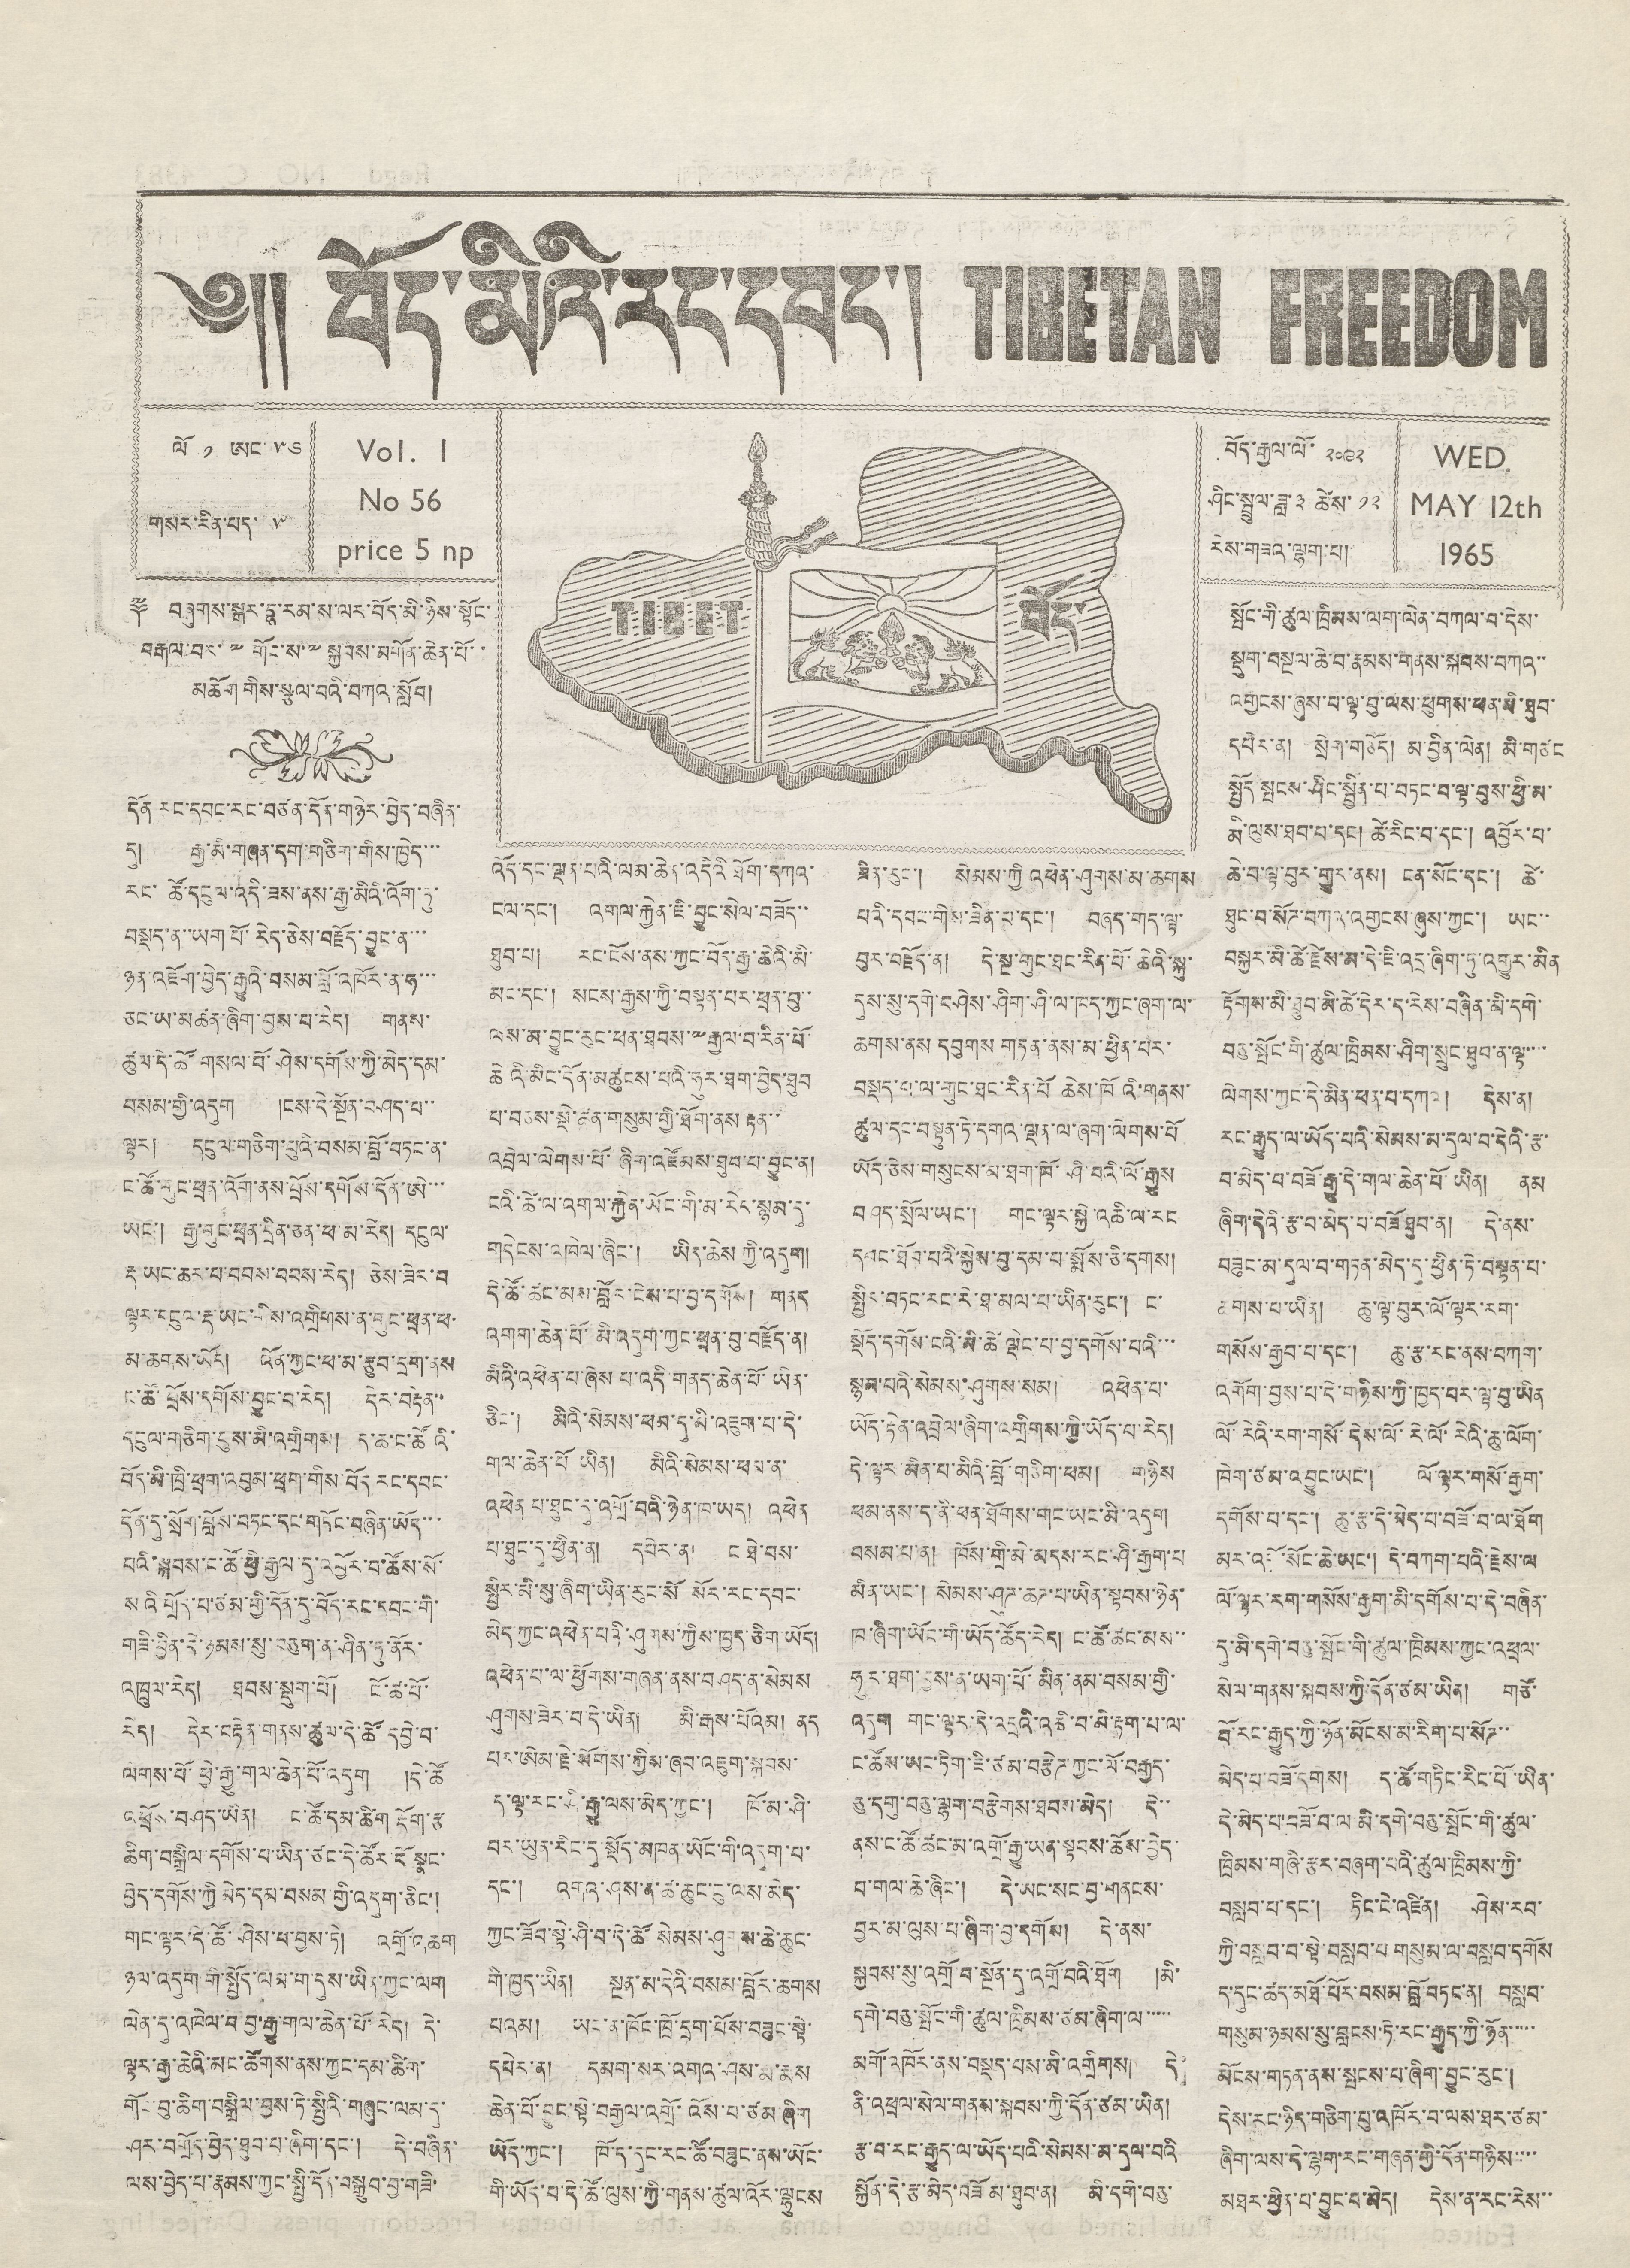༄།། བོད་མིའི་རང་དབང་། TIBETAN FREEDOM
ལོ ༡ ཨང་ ༥༦
གསར་རིན་པད་ ༥
Vol.   l
No 56
price 5 np
༈  བཞུགས་སྐར་དྷ་རམ་ས་ལར་བོད་མི་ཉིས་སྟོང་
བརྒལ་བར་༸གོང་ས་༸སྐྱབས་མགོན་ཆེན་པོ་་
མཆོག གིས་སྩལ་བའི་བཀའ་སློབ།
TIBET      བོད་
བོད་རྒྱལ་ལོ་ ༢༠༩༢
ཤིང་སྦྲུལ་ཟླ་༣ ཚེས་ ༡༢
རེས་གཟའ་ལྷག་པ།
WED
MAY  12th
1965
དོན རང་དབང་རང་བཙན་དོན་གཉེར་བྱེད་བཞིན་
དུ། རྒྱ་མི་གཞན་དག་གཅིག་གིས་ཁྱེད་་་
རང་ཚོ་དངུལ་འདི་ཟས་ནས་རྒྱ་མིའི་འོག་ཏུ་
བསྡད་ན་ཡག པོ་རེད་ཅེས་བརྗོད་བྱུང་ན་་་
ཉན་འཇོག་བྱེད་རྒྱུའི་བསམ་བློ་འཁོར་ན་ཧ་་་
ཅང་ཡ་མཚན་ཞིག་བྱས་པ་རེད། གནས་
ཚུལ་དེ་ཚོ་གསལ་པོ་ཤེས་དགོས་ཀྱི་མེད་དམ་
བསམ་གྱི་འདུག །ངས་དེ་སྔོན་བཤད་པ་་
ལྟར། དངུལ་གཅིག་པུའི་བསམ་བློ་བཏང་ན་
ང་ཚོ་གུང་ཕྲན་འོག་ནས་བྲོས་དགོས་དོན་ཨེ་་་
ཡང་། རྒྱ་གུང་ཕྲན་དྲིན་ཅན་ཕ་མ་རེད། དངུལ་
རྡ ཡང་ཆར་པ་བབས་རེད།   ཅེས་ཟེར་བ
ལྟར་དངུལ་རྡ་ཡང་གིས་འགྲིགས་ན་གུང་ཕྲན་ཕ་
མ་ཆགས་ཡོད། འོན་ཀྱང་ཕ་མ་རྩུབ་དྲག་ནས
ང་ཚོ་བྲོས་དགོས་བྱུང་བ་རེད། དེར་བརྟེན་་
དངུལ་གཅིག་བུས་མི་འགྲིགས། ད་ཆ་ང་ཚོའི་
བོད་མི་ཁྲི་ཕྲག་འབུམ་ཕྲག་གིས་བོད རང་དབང་
དོན་དུ་སྲོག་བློས་བཏང་དང་གཏོང་བཞིན་ཡོད་་་
པའི་སྐབས་ང་ཚོ་ཕྱི་རྒྱལ་དུ་འབྱོར་བ་ཚོས་སོ་
སའི་གྲོད་པ་ཙམ་གྱི་དོན་དུ་བོད་རང་དབང་གི་
གཟི་བྱིན་དེ་ཉམས་སུ་བཅུག་ན་ཤིན་ཏུ་ནོར་
འཁྲུལ་རེད། ཐབས་སྡུག་པོ། ངོ་ཚ་པོ་
རེད། དེར་བརྟེན་གནས་ཚུལ་དེ་ཚོ་དབྱེ་བ་
ལེགས་པོ་ཕྱེ་རྒྱུ་གལ་ཆེན་པོ་འདུག །དེ་ཚོ
འཕྲོས་བཤད་ཡིན། ང་ཚོ་དམ་ཚིག རྡོག་རྩ
ཆིག་བསྒྲིལ་དགོས་པ་ཡིན་ཙང་དེ་ཚོར་དོ སྣང་
བྱེད་དགོས་ཀྱི མེད་དམ་བསམ་གྱི་འདུག་ཅིང་།
གང་ལྟར་དེ་ཚོ་ཤེས་པ་བྱས་ཏེ། འགྲོ་འཆག
ཉལ་འདུག གི་སྤྱོད་ལམ་གདུས་ཡིན་ཀྱང་ལག
ལེན་དུ་འཁེལ་བ་བྱ་རྒྱ་གལ་ཆེན་པོ་རེད། དེ་
ལྟར་རྒྱ་ཆེའི་མང་ཚོགས་ནས་ཀྱང་དམ་ཚིག་
གོང་བུ་ཆིག་བསྒྲིལ་བྱས་ཏེ་སྤྱིའི་གཞུང་ལམ་དུ་
ཤར་བགྲོད་བྱེད་ཐུབ་པ་ཞིག་དང་། དེ་བཞིན་
ལས་བྱེད་པ་རྣམས་ཀྱང་སྤྱི་དོན་བསྒྲུབ་བྱ་གཟི་
འོད་དང་ལྡན་པའི་ལམ་ཆེན་འདིའི་ཐོག་དཀའ་
ངལ་དང་། འགལ་རྐྱེན་ཇི་བྱུང་སེལ་བཟོད་་
ཐུབ་པ། རང་ངོས་ནས་ཀྱང་བོད་རྒྱ་ཆེའི་མི་
མང་དང་། སངས་རྒྱས་ཀྱི་བསྟན་པར་ཕྲན་བུ་་
ལས་མ་བྱུང་རུང་ཕན་ཐབས་༸རྒྱལ་བ་རིན་པོ་
ཆེའི་མིང་དོན་མཚུངས་པའི་ཧུར་ཐག་བྱེད་ཐུབ་
པ་བཅས་སྡེ་ཚན་གསུམ་གྱི་ཐོག་ནས རྟན་་་
འབྲེལ་ལེགས་པོ་ཞིག་འཛོམས་ཐུབ་པ་བྱུང་ན།
ངའི་ཚེ་ལ་འགལ་རྐྱེན་ཡོང་གི་མ་རེད་སྙམ་དུ་
གདེངས་འཁེལ་ཞིང་། ཡིད་ཆེས ཀྱི་འདུག།
དེ་ཚོ་ཚང་མས་བློར་ངེས་པ་བྱ་དགོས། གནད་
འགག་ཆེན་པོ་མི་འདུག་ཀྱང་ཕྲན་བུ་བརྗོད་ན།
མིའི་འཕེན་པ་ཞེས པ་འདི་གནད་ཆེན་པོ་ཡིན་
ཅིང་། མིའི་སེམས་ཕམ་དུ་མི་འཇུག་པ་དེ་
གལ་ཆེན་པོ ཡིན། མིའི་སེམས་ཕམ་ན་
འཕེན པ་ཐུང་དུ་འགྲོ་བའི་ཉེན་ཁ་ཡད། འཕེན
པ་ཐུང་དུ་ཕྱིན་ན། དཔེར་ན། ང ཐེ་བས་
སྤྱིར་མི་སུ་ཞིག་ཡིན་རུང་སོ སོར་རང་དབང་
མེད་ཀྱང་འཕེན་པའི་ཤུགས་ཀྱིས་ཁྱད་ཅིག་ཡོད།
འཕེན་པ་ལ་ཕྱོགས་གཞན་ནས་བཤད་ན་སེམས
ཤུགས་ཟེར་བ་དེ་ཡིན། མི་རྒས་པོའམ། ནད
པར་ཨེམ་རྗེ་སོགས་ཀྱིས་ཞབ་འཇུག་སྐབས་
ད་ལྟ་རང་ཤི་རྒྱུ་ལས་མེད་ཀྱང་། ཁོ་མ་ཤི་
བར་ཡུན་རིང་དུ་སྡོད་མཁན་ཡོང་གི་འདུག་པ་
དང་། འགའ་ཤས་ན་ཚ་ཆུང་ངུ་ལས་མེད་
ཀྱང་ཟོབ་སྟེ་ཤི་བ་དེ་ཚོ་སེམས་ཤུགས་ཆེ་ཆུང་
གི་ཁྱད་ཡིན། སྔན་མ་དེའི་བསམ་བློར་ཆགས
པའམ། ཡང་ན་ཁོང་ཁྲོ་དྲག་པོས་བཟུང་སྟེ་
དཔེར་ན། དམག་སར་འགའ་ཤས་རྨ་རྨས
ཆེན་པོ་བྱུང་སྟེ་བརྒྱལ་འགྲོ་འོས་པ་ཙམ་ཞིག
ཡོད་ཀྱང་། ཁོ་ད་དུང་རང་ཚོ་བཟུང་ནས་ཡོང་
གི་ཡོད་པ་དེ་ཚོ་ལུས་ཀྱི་གནས་ཚུལ་འོར་ལྷུངས
ཟིན་རུང་། སེམས་ཀྱི འཕེན་ཤུགས་མ་ཆགས
པའི་དབང་གིས་ཟིན་པ་དང་། བཞད་གད་ལྟ་
བུར་བརྗོད་ན། དེ་སྔ་གུང་ཐང་རིན་པོ་ཆེའི་སྐུ་
དུས་སུ་དགེ་བཤེས་ཤིག་ཤི་ལ་ཁད་ཀྱང་ཞག་ལ་
ཆགས་ནས དབུགས གཏན་ནས་མ་ཕྱིན་པེར་
བསྡད་པ་ལ་གུང་ཐང་རིན་པོ ཆེས་ཁོའི་གནས་
ཚུལ་དང་བསྟུན་ཏེ་དགའ་ལྡན་ལ་ཞག་ལེགས་པོ
ཡོད་ཅེས་གསུངས་མ་ཐག་ཁོ་ཤི་བའི་ལོ་རྒྱུས
བཤད་སྲོལ་ཡང་། གང་ལྟར་སྐྱེ་འཆི་ལ་རང
དབང་ཐོབ་པའི་སྐྱེས་བུ་དམ་པ་སྨོས་ཅི་དགུས།།
སྤྱིར་བཏང་རང་རེ་ཐ་མལ་པ་ཡིན་རུང་། ང་
སྡོད་དགོས་ངའི་མི་ཚེ ལྡེང་པ་བྱ་དགོས་པའི་་་
སྙམ་པའི་སེམས་ཤུགས་སམ། འཕེན་པ་
ཡོད་རྟེན་འབྲེལ་ཞིག་འགྲིགས་ཀྱི་ཡོད་པ་རེད།
དེ་ལྟར མིན་པ་མིའི་བློ་གཅིག་ཕམ། གཉིས
ཕམ་ནས་ད་ནི་ཕན་ཐོགས་གང་ཡང་མི་འདུག
བསམ་པ་ན། ཁོས་གྲི་མེ་མདས་རང་ཤི་རྒྱག་པ
མིན་ཡང་། སེམས་ཤུཊ་ཆཊ་པ་ཡིན་སྟབས་ཉེན་
ཁ་ཞིག་ཡོང་གི་ཡོད་ཚོད་རེད། ང་ཚོ་ཚང་མས་་
ཧུར་ཐག་བྱས་ན་ཡག་པོ་མིན་ནམ་བསམ་གྱི་
འདུག གང་ལྟར་དེ་འདྲའི་འཆི་བ་མི་རྟག་པ་ལ་
ང་ཚོས་ཡང་ཏིག་ཇི་ཙམ་བརྩེཊ་ཀྱང་ལོ་བརྒྱད་
ཅུ་དགུ་བཅུ་ལྷག་བརྩེགས་ཐབས་མེད། དེ་་
ནས་ང་ཚོ་ཚང་མ་འགྲོ་རྒྱུ་ཡན་སྟབས་ཆོས་བྱེད་
པ་གལ་ཆེ་ཞིང་། དེ་ཡང་སང་བྱ་གནངས་
བྱར་མ་ལུས་པ་ཞིག་བྱ་དགོས། དེ་ནས་
སྐྱབས་སུ་འགྲོ་བ་སྔོན་དུ་འགྲོ་བའི་ཐོག །མི་
དགེ་བཅུ་སྤྱོང་གི་ཚུལ་ཁྲིམས་ཙམ་ཞིག་ལ་་་་་
མགོ་འཁོར་ནས་བསྡད་པས་མི་འགྲིགས། དེ་
ནི་འཕྲལ་སེལ་གནས་སྐབས་ཀྱི་དོན་ཙམ་ཡིན།
རྩ་བ་རང་རྒྱུད་ལ་ཡོད་པའི་སེམས་མ་དལ་བའི
སྐྱོན་དེ་རྩ་མེད་བཟོམ་ཐུབ་ན། མི་དགེ་བཅུ་
སྤོང་གི་ཚུལ་ཁྲིམས་ལག་ལེན་བཀལ་བ་དེས་
སྡུག་བསྔལ་ཆེ་བ་རྣམས་གནས་སྐབས་བཀའ་་
འགྱངས་ཞུས་པ་ལྟ་བུ་ལས་ཕུགས་ཕན་མི་ཐུབ་
དཔེར་ན། སྲེག་གཅོད། མ་བྱིན་ལེན། མི་གཙང
སྤྱོད སྤངས་ཤིང་སྦྱིན་པ་བཏང་བ་ལྟ་བུས་ཕྱི་མ་
མི་ལུས་ཐུབ་པ་དང། ཚེ་རིང་བ་དང་། འབྱོར་བ་
ཆེ་བ་ལྟ་བུར་གྱུར་ནས། ངན་སོང་དང་། ཚེ་
ཐུང་བ་སོཌ་བཀའ་འགྱངས་ཞུས་ཀྱང་། ཡང་་
བསྐྱར་མི་ཚེ་རྗེས་མ་དེ་ཇི་འདྲ་ཞིག་ཏུ་འགྱུར་མིན
རྟོགས་མི་ཐུབ་མི་ཚེ་དེར་ད་རེས་བཞིན་མི་དགེ་
བཅུ་སྤོང་གི་ཚུལ་ཁྲིམས་ཤིག་སྲུང་ཐུབ་ན་ལྟ་་་་
ལེགས་ཀྱང་དེ་མིན་ཕན་པ་དཀའ། དེས་ན།
རང་རྒྱུད་ལ་ཡོད་པའི་སེམས་མ་དུལ་བ་དེའི་རྩ་
བ་མེད་པ་བཟོ་རྒྱུ་དེ་གལ་ཆེན་པོ་ཡིན། ནམ
ཞིག་དེའི་རྩ་བ་མེད་པ་བཟོ ཐུབ་ན། དེ་ནས་
བཟུང་མ་དུལ་བ་གཏན་མེད་དུ་ཕྱིན་ཏེ་བསྟན་པ་
ཆགས་པ་ཡིན། ཆུ་ལྟ་བུར་ལོ་ལྟར་རག་
གསོས་རྒྱབ་པ་དང་། ཆུ་རྩ་རང་ནས་བཀག་
འགོག་བྱས་པ་དེ་གཉིས་ཀྱི་ཁྱད་པར་ལྟ་བུ་ཡིན།
ལོ་རེའི་རག་གསོ་དེས་ལོ་རེ་ལོ་རེའི་ཆུ་ལོག་
ཁེག་ཙམ་འབྱུང་ཡང་། ལོ་ལྟར་གསོ་རྒྱག་
དགོས་པ་དང་། ཆུ་རྩ་དེ་མེད་པ་བཟོ་བ་ལ་ཐོག
མར་འངོ་སོང་ཆེ་ཡང་། དེ་བཀག་པའི་རྗེས་ལ
ལོ་ལྟར་རག་གསོས་རྒྱག་མི་དགོས་པ་དེ་བཞིན་
དུ་མི་དགེ་བཅུ་སྤོང་གི་ཚུལ་ཁྲིམས་ཀྱང་འཕྲལ་
སེལ་གནས་སྐབས་ཀྱི་དོན་ཙམ་ཡིན། གཙོ་
བོ་རང་རྒྱུད་ཀྱི་ཉོན་མོངས་མ་རིག་པ་སོཌ་་
མེད་པ་བཟོ་དགེས། ད་ཚོ་གཏིང་རིང་པོ་ཡིན་
དེ་མེད་པ་བཟོ་བ་ལ མི་དགེ་བཅུ་སྤོང་གི་ཚུལ་
ཁྲིམས་གཞི་རྩར་བཞག་པའི་ཚུལ་ཁྲིམས་ཀྱི་
བསླབ་པ་དང་། ཏིང་ངེ་འཛིན། ཤེས་རབ་
ཀྱི་བསླབ་བ་སྟེ་བསླབ་པ གསུམ་ལ་བསླབ་དགོས
ད་དུང་ཚད་མཐོ་པོར་བསམ་བློ་བཏང་ན། བསླབ་
གསུམ་ཉམས་སུ་བླངས་ཏེ་རང་རྒྱུད་ཀྱི་ཉོན་་་་་
མོངས་གཏན་ནས་སྤངས་པ་ཞིག་བྱུང་རུང་།
དེས་རང་ཉིད་གཅིག་པུ་འཁོར་བ་ལས་ཐར་ཙམ་
ཞིག་ལས་དེ་ལྷག་རང་གཞན་གྱི་དོན་གཉིས་་་་
མཐར་ཕྱིན་པ་བྱུང་བ་མེད། དེས་ན་རང་རེས་་
